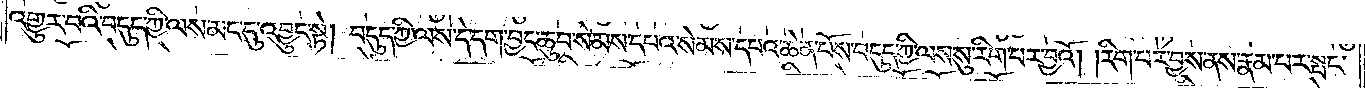འགྱུར་བའི་བདུད་ཀྱི་ལས་མང་དུ་འབྱུང་སྟེ། བདུད་ཀྱི་ལས་དེ་དག་བྱང་ཆུབ་སེམས་དཔའ་སེམས་དཔའ་ཆེན་པོས་བདུད་ཀྱི་ལས་སུ་རིག་པར་བྱའོ། །རིག་པར་བྱས་ནས་རྣམ་པར་སྤང་
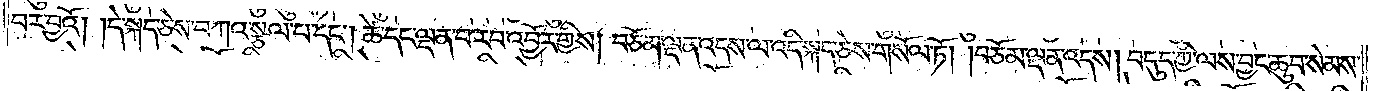བར་བྱའོ། །དེ་སྐད་ཅེས་བཀའ་སྩལ་པ་དང༌། ཚེ་དང་ལྡན་པ་རབ་འབྱོར་གྱིས། བཅོམ་ལྡན་འདས་ལ་འདི་སྐད་ཅེས་གསོལ་ཏོ། །བཅོམ་ལྡན་འདས། བདུད་ཀྱི་ལས་བྱང་ཆུབ་སེམས་
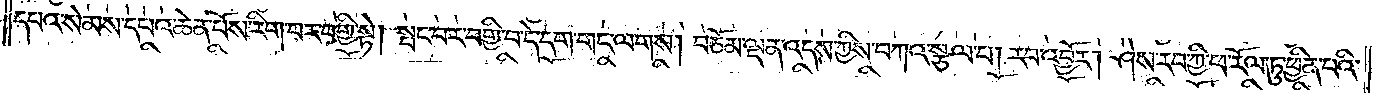དཔའ་སེམས་དཔའ་ཆེན་པོས་རིག་པར་བགྱི་སྟེ། སྤང་བར་བགྱི་བ་དེ་དག་གང་ལགས། བཅོམ་ལྡན་འདས་ཀྱིས་བཀའ་སྩལ་པ། རབ་འབྱོར། ཤེས་རབ་ཀྱི་ཕ་རོལ་ཏུ་ཕྱིན་པའི་
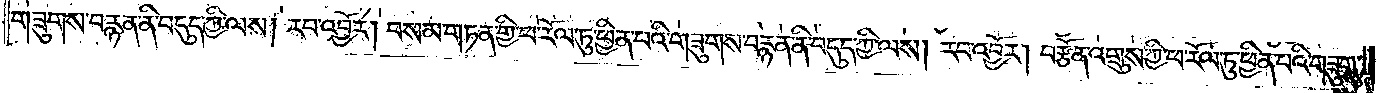གཟུགས་བརྙན་ནི་བདུད་ཀྱི་ལས། རབ་འབྱོར། བསམ་གཏན་གྱི་ཕ་རོལ་ཏུ་ཕྱིན་པའི་གཟུགས་བརྙན་ནི་བདུད་ཀྱི་ལས། རབ་འབྱོར། བརྩོན་འགྲུས་ཀྱི་ཕ་རོལ་ཏུ་ཕྱིན་པའི་གཟུགས་
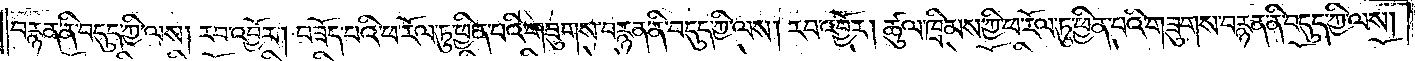བརྙན་ནི་བདུད་ཀྱི་ལས། རབ་འབྱོར། བཟོད་པའི་ཕ་རོལ་ཏུ་ཕྱིན་པའི་གཟུགས་བརྙན་ནི་བདུད་ཀྱི་ལས། རབ་འབྱོར། ཚུལ་ཁྲིམས་ཀྱི་ཕ་རོལ་ཏུ་ཕྱིན་པའི་གཟུགས་བརྙན་ནི་བདུད་ཀྱི་ལས།
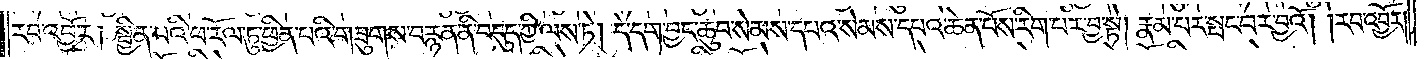རབ་འབྱོར༑ སྦྱིན་པའི་ཕ་རོལ་ཏུ་ཕྱིན་པའི་གཟུགས་བརྙན་ནི་བདུད་ཀྱི་ལས་ཏེ། དེ་དག་བྱང་ཆུབ་སེམས་དཔའ་སེམས་དཔའ་ཆེན་པོས་རིག་པར་བྱ་སྟེ། རྣམ་པར་སྤང་བར་བྱའོ། །རབ་འབྱོར།
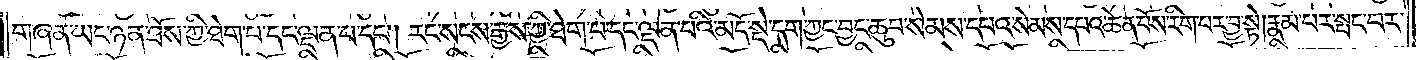གཞན་ཡང་ཉན་ཐོས་ཀྱི་ཐེག་པ་དང་ལྡན་པ་དང༌། རང་སངས་རྒྱས་ཀྱི་ཐེག་པ་དང་ལྡན་པའི་མདོ་སྡེ་དག་ཀྱང་བྱང་ཆུབ་སེམས་དཔའ་སེམས་དཔའ་ཆེན་པོས་རིག་པར་བྱ་སྟེ། རྣམ་པར་སྤང་བར་
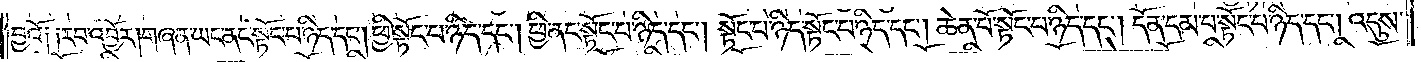བྱའོ༑ ༑རབ་འབྱོར། གཞན་ཡང་ནང་སྟོང་པ་ཉིད་དང༌། ཕྱི་སྟོང་པ་ཉིད་དང༌། ཕྱི་ནང་སྟོང་པ་ཉིད་དང༌། སྟོང་པ་ཉིད་སྟོང་པ་ཉིད་དང༌། ཆེན་པོ་སྟོང་པ་ཉིད་དང༌། དོན་དམ་པ་སྟོང་པ་ཉིད་དང༌། འདུས་
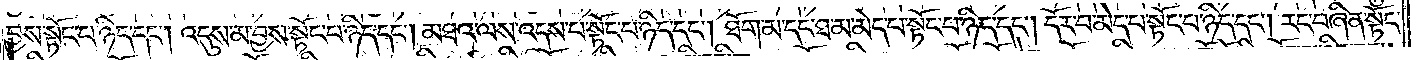བྱས་སྟོང་པ་ཉིད་དང༌། འདུས་མ་བྱས་སྟོང་པ་ཉིད་དང༌། མཐའ་ལས་འདས་པ་སྟོང་པ་ཉིད་དང༌། ཐོག་མ་དང་ཐ་མ་མེད་པ་སྟོང་པ་ཉིད་དང༌། དོར་བ་མེད་པ་སྟོང་པ་ཉིད་དང༌། རང་བཞིན་སྟོང་
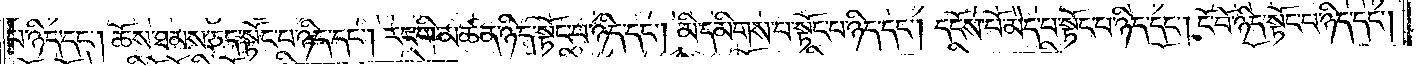པ་ཉིད་དང༌། ཆོས་ཐམས་ཅད་སྟོང་པ་ཉིད་དང༌། རང་གི་མཚན་ཉིད་སྟོང་པ་ཉིད་དང༌། མི་དམིགས་པ་སྟོང་པ་ཉིད་དང༌། དངོས་པོ་མེད་པ་སྟོང་པ་ཉིད་དང༌། ངོ་བོ་ཉིད་སྟོང་པ་ཉིད་དང༌།
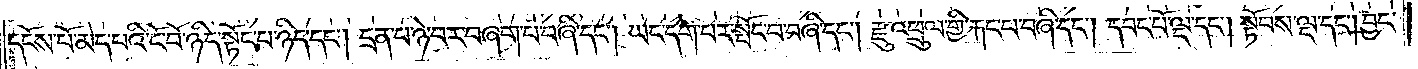དངོས་པོ་མེད་པའི་ངོ་བོ་ཉིད་སྟོང་པ་ཉིད་དང༌། དྲན་པ་ཉེ་བར་བཞག་པ་བཞི་དང༌། ཡང་དག་པར་སྤོང་བ་བཞི་དང༌། རྫུ་འཕྲུལ་གྱི་རྐང་པ་བཞི་དང༌། དབང་པོ་ལྔ་དང༌། སྟོབས་ལྔ་དང༌། བྱང་
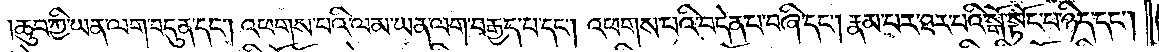ཆུབ་ཀྱི་ཡན་ལག་བདུན་དང༌། འཕགས་པའི་ལམ་ཡན་ལག་བརྒྱད་པ་དང༌། འཕགས་པའི་བདེན་པ་བཞི་དང༌། རྣམ་པར་ཐར་པའི་སྒོ་སྟོང་པ་ཉིད་དང༌།
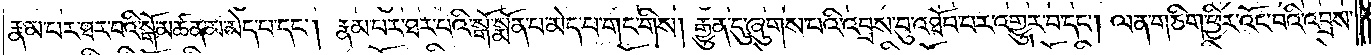རྣམ་པར་ཐར་པའི་སྒོ་མཚན་མ་མེད་པ་དང༌། རྣམ་པར་ཐར་པའི་སྒོ་སྨོན་པ་མེད་པ་གང་གིས། རྒྱུན་དུ་ཞུགས་པའི་འབྲས་བུ་འཐོབ་པར་འགྱུར་བ་དང༌། ལན་གཅིག་ཕྱིར་འོང་བའི་འབྲས་
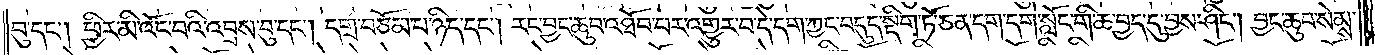བུ་དང༌། ཕྱིར་མི་འོང་བའི་འབྲས་བུ་དང༌། དགྲ་བཅོམ་པ་ཉིད་དང༌། རང་བྱང་ཆུབ་འཐོབ་པར་འགྱུར་བ་དེ་དག་ཀྱང་བདུད་སྡིག་ཏོ་ཅན་དག་དགེ་སློང་གི་ཆ་བྱད་དུ་བྱས་ཤིང༌། བྱང་ཆུབ་སེམས་
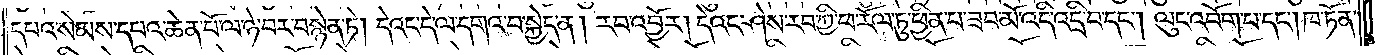དཔའ་སེམས་དཔའ་ཆེན་པོ་ལ་ཉེ་བར་བསྙེན་ཏེ། དེའང་དེ་ལ་དགའ་བ་སྐྱེད་ན། རབ་འབྱོར། དེའང་ཤེས་རབ་ཀྱི་ཕ་རོལ་ཏུ་ཕྱིན་པ་ཟབ་མོ་འདི་འདྲི་བ་དང༌། ལུང་འབོག་པ་དང༌། ཁ་ཏོན་
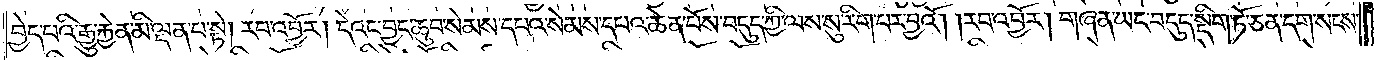བྱེད་པའི་རྒྱུ་རྐྱེན་མི་ལྡན་པ་སྟེ། རབ་འབྱོར། དེའང་བྱང་ཆུབ་སེམས་དཔའ་སེམས་དཔའ་ཆེན་པོས་བདུད་ཀྱི་ལས་སུ་རིག་པར་བྱའོ། །རབ་འབྱོར། གཞན་ཡང་བདུད་སྡིག་ཏོ་ཅན་དག་སངས་
